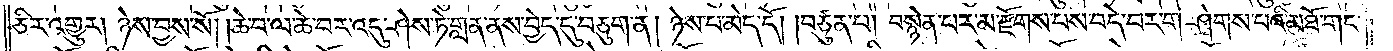ཅིར་འགྱུར། ཉེས་བྱས་སོ། །ཆེ་བ་ལ་ཆེ་བར་འདུ་ཤེས་ཏེ་གླན་ནས་བྱེད་དུ་བཅུག་ན། ཉེས་པ་མེད་དོ། །བཙུན་པ། བསྙེན་པར་མ་རྫོགས་པས་བདེ་བར་གཤེགས་པའི་མཐོ་གང་
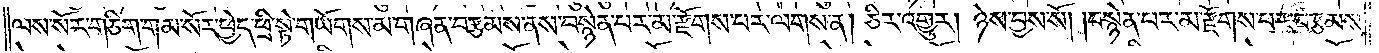ལས་སོར་གཅིག་གམ་སོར་ཕྱེད་ཕྲི་སྟེ་གཡོགས་མ་གཞན་བརྩམས་ནས་བསྙེན་པར་མ་རྫོགས་པར་ལགས་ན། ཅིར་འགྱུར། ཉེས་བྱས་སོ། །བསྙེན་པར་མ་རྫོགས་པར་བརྩམས་
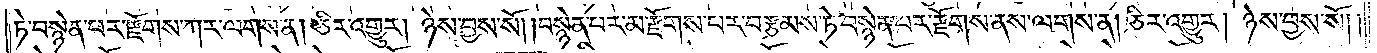ཏེ་བསྙེན་པར་རྫོགས་ཀར་ལགས་ན། ཅིར་འགྱུར། ཉེས་བྱས་སོ། །བསྙེན་པར་མ་རྫོགས་པར་བརྩམས་ཏེ་བསྙེན་པར་རྫོགས་ནས་ལགས་ན། ཅིར་འགྱུར། ཉེས་བྱས་སོ། །
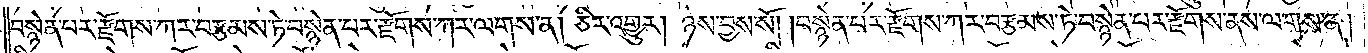བསྙེན་པར་རྫོགས་ཀར་བརྩམས་ཏེ་བསྙེན་པར་རྫོགས་ཀར་ལགས་ན། ཅིར་འགྱུར། ཉེས་བྱས་སོ། །བསྙེན་པར་རྫོགས་ཀར་བརྩམས་ཏེ་བསྙེན་པར་རྫོགས་ནས་ལགས་ན།
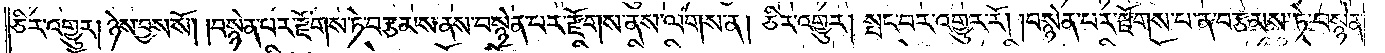ཅིར་འགྱུར། ཉེས་བྱས་སོ། །བསྙེན་པར་རྫོགས་ཏེ་བརྩམས་ནས་བསྙེན་པར་རྫོགས་ནས་ལགས་ན། ཅིར་འགྱུར། སྤང་བར་འགྱུར་རོ། །བསྙེན་པར་རྫོགས་པ་ན་བརྩམས་ཏེ་བསྙེན་
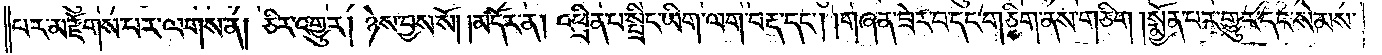པར་མ་རྫོགས་པར་ལགས་ན། ཅིར་འགྱུར། ཉེས་བྱས་སོ། །མདོར་ན། འཕྲིན་པ་སྤྲིང་ཡིག་ལག་བརྡ་དང༌། གཞན་ཟེར་བ་དང་གཅིག་ནས་གཅིག །སྨྱོན་པར་གྱུར་དང་སེམས་
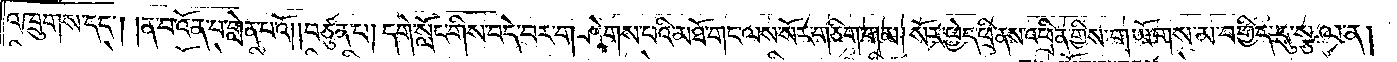འཁྲུགས་དང༌། །ན་བ་འོན་པ་གླེན་པའོ། །བཙུན་པ། དགེ་སློང་གིས་བདེ་བར་གཤེགས་པའི་མཐོ་གང་ལས་སོར་གཅིག་གམ། སོར་ཕྱེད་ཕྲི་ནས་འཕྲིན་གྱིས་གཡོགས་མ་བགྱིད་དུ་སྩལ་ན།
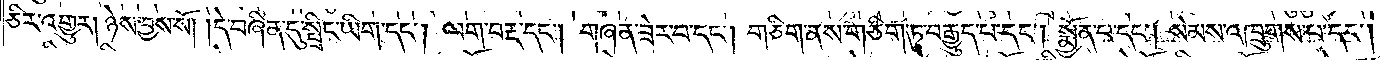ཅིར་འགྱུར། ཉེས་བྱས་སོ། །དེ་བཞིན་དུ་སྤྲིང་ཡིག་དང༌། ལག་བརྡ་དང༌། གཞན་ཟེར་བ་དང༌། གཅིག་ནས་གཅིག་ཏུ་བརྒྱུད་པ་དང༌། སྨྱོན་པ་དང༌། སེམས་འཁྲུགས་པ་དང༌།
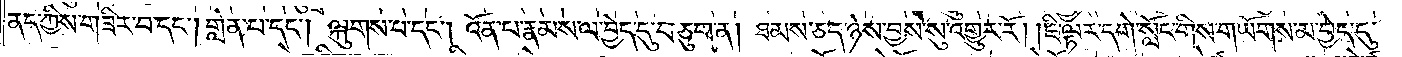ནད་ཀྱིས་གཟིར་བ་དང༌། གླེན་པ་དང༌། ལྐུགས་པ་དང༌། འོན་པ་རྣམས་ལ་བྱེད་དུ་བཅུག་ན། ཐམས་ཅད་ཉེས་བྱས་སུ་འགྱུར་རོ། །ཇི་ལྟར་དགེ་སོང་གིས་གཡོགས་མ་བྱེད་དུ་
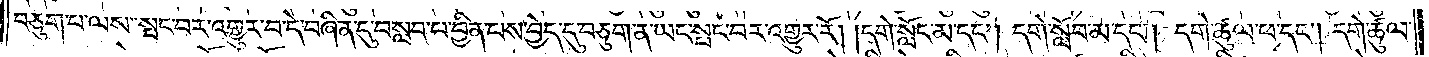བཅུག་པ་ལས་སྤང་བར་འགྱུར་བ་དེ་བཞིན་དུ་བསླབ་པ་བྱིན་པས་བྱེད་དུ་བཅུག་ན་ཡང་སྤང་བར་འགྱུར་རོ། །དགེ་སློང་མ་དང༌། དགེ་སློབ་མ་དང༌། དགེ་ཚུལ་ཕ་དང༌། དགེ་ཚུལ་
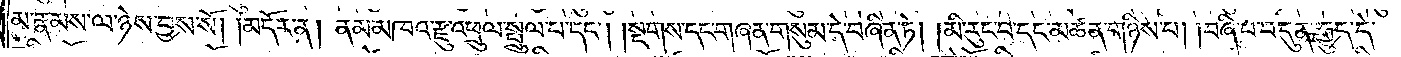མ་རྣམས་ལ་ཉེས་བྱས་སོ།    །མདོར་ན། ནམ་མཁའ་རྫུ་འཕྲུལ་སྤྲུལ་པ་དང༌། །སྔགས་དང་གཞན་གསུམ་དེ་བཞིན་ཏེ། །མི་རུང་བ་དང་མཚན་གཉིས་པ། །བཞི་པ་བདུན་རྒྱུད་དེ་
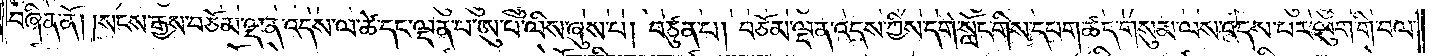བཞིན་ནོ། །སངས་རྒྱས་བཅོམ་ལྡན་འདས་ལ་ཚེ་དང་ལྡན་པ་ཨུ་པ་ལིས་ཞུས་པ། བཙུན་པ། བཅོམ་ལྡན་འདས་ཀྱིས་དགེ་སློང་གིས་དཔག་ཚད་གསུམ་ལས་འདས་པར་ལུག་གི་བལ་
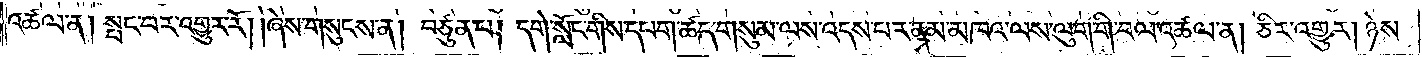འཚལ་ན། སྤང་བར་འགྱུར་རོ། །ཞེས་གསུངས་ན། བཙུན་པ། དགེ་སློང་གིས་དཔག་ཚད་གསུམ་ལས་འདས་པར་ནམ་མཁའ་ལས་ལུག་གི་བལ་འཚལ་ན། ཅིར་འགྱུར། ཉེས་
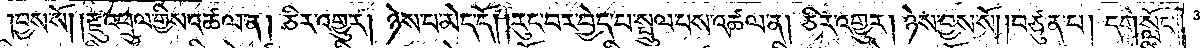།བྱས་སོ། །རྫུ་འཕྲུལ་གྱིས་འཚལ་ན། ཅིར་འགྱུར། ཉེས་པ་མེད་དོ། །རུང་བར་བྱེད་པ་སྤྲུལ་པས་འཚལ་ན། ཅིར་འགྱུར། ཉེས་བྱས་སོ། །བཙུན་པ། དགེ་སློང་
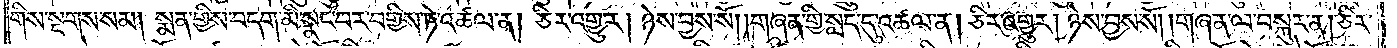གིས་སྔགས་སམ། སྨན་གྱིས་བདག་མི་སྣང་བར་བགྱིས་ཏེ་འཚལ་ན། ཅིར་འགྱུར། ཉེས་བྱས་སོ། །གཞན་གྱི་སླད་དུ་འཚལ་ན། ཅིར་འགྱུར། ཉེས་བྱས་སོ། །གཞན་ལ་བསྐུར་ན། ཅིར་
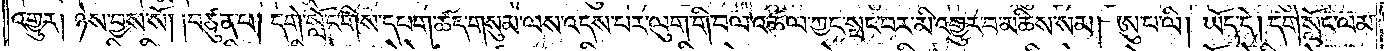འགྱུར། ཉེས་བྱས་སོ། །བཙུན་པ། དགེ་སློང་གིས་དཔག་ཚད་གསུམ་ལས་འདས་པར་ལུག་གི་བལ་འཚལ་ཀྱང་སྤང་བར་མི་འགྱུར་བ་མཆིས་སམ། ཨུ་པ་ལི། ཡོད་དེ། དགེ་སློང་ལམ་
